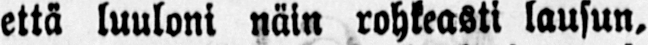että luuloni näin rohkeasti lausun,
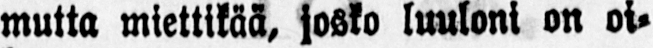mutta miettikää, josko luuloni on oi-
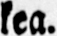kea.
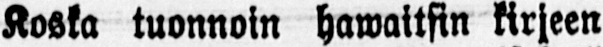Koska tuonnoin hawaitsin kirjeen
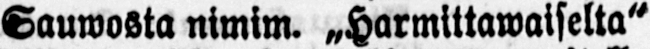Sauwosta nimim. „Harmittawaiselta"
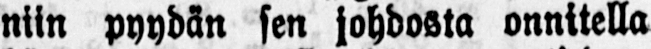niin pyydän sen johdosta onnitella
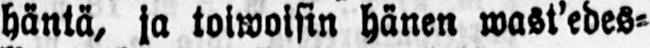häntä, ja toiwoisin hänen wast’edes-
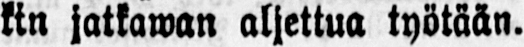kin jatkawan aljettua työtään.
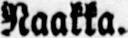Naakka.
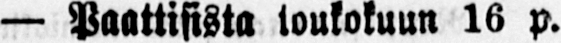— Paattisista toukokuun 16 p.
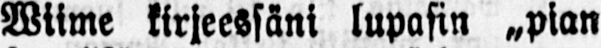Wiime kirjeessäni lupasin „pian
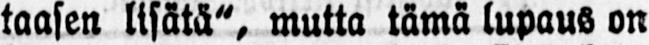taasen lisätä", mutta tämä lupaus on
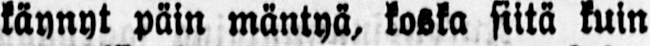käynyt päin mäntyä, koska siitä kuin
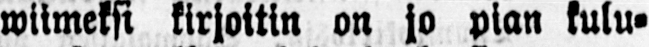wiimeksi kirjoitin on jo pian kulu-
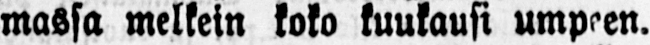massa melkein koko kuukausi umpeen.
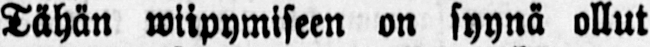Tähän wiipymiseen on syynä ollut
